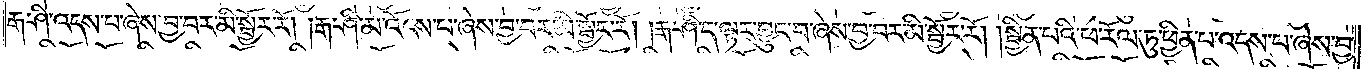རྒ་ཤི་འདས་པ་ཞེས་བྱ་བར་མི་སྦྱོར་རོ། །རྒ་ཤི་མ་འོངས་པ་ཞེས་བྱ་བར་མི་སྦྱོར་རོ། །རྒ་ཤི་ད་ལྟར་བྱུང་བ་ཞེས་བྱ་བར་མི་སྦྱོར་རོ། །སྦྱིན་པའི་ཕ་རོལ་ཏུ་ཕྱིན་པ་འདས་པ་ཞེས་བྱ་
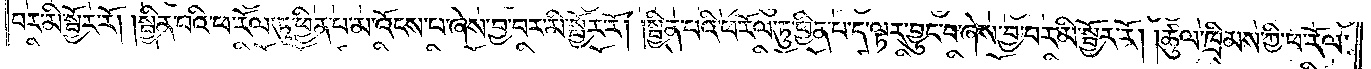བར་མི་སྦྱོར་རོ། །སྦྱིན་པའི་ཕ་རོལ་ཏུ་ཕྱིན་པ་མ་འོངས་པ་ཞེས་བྱ་བར་མི་སྦྱོར་རོ། །སྦྱིན་པའི་ཕ་རོལ་ཏུ་ཕྱིན་པ་ད་ལྟར་བྱུང་བ་ཞེས་བྱ་བར་མི་སྦྱོར་རོ། །ཚུལ་ཁྲིམས་ཀྱི་ཕ་རོལ་
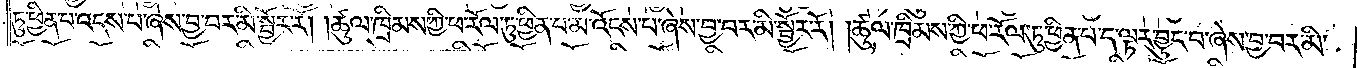ཏུ་ཕྱིན་པ་འདས་པ་ཞེས་བྱ་བར་མི་སྦྱོར་རོ། །ཚུལ་ཁྲིམས་ཀྱི་ཕ་རོལ་ཏུ་ཕྱིན་པ་མ་འོངས་པ་ཞེས་བྱ་བར་མི་སྦྱོར་རོ། །ཚུལ་ཁྲིམས་ཀྱི་ཕ་རོལ་ཏུ་ཕྱིན་པ་ད་ལྟར་བྱུང་བ་ཞེས་བྱ་བར་མི་
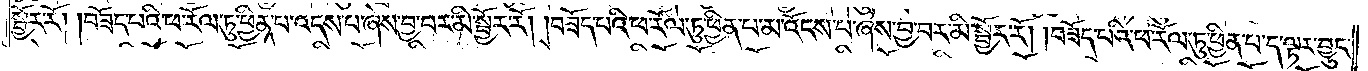སྦྱོར་རོ། །བཟོད་པའི་ཕ་རོལ་ཏུ་ཕྱིན་པ་འདས་པ་ཞེས་བྱ་བར་མི་སྦྱོར་རོ། །བཟོད་པའི་ཕ་རོལ་ཏུ་ཕྱིན་པ་མ་འོངས་པ་ཞེས་བྱ་བར་མི་སྦྱོར་རོ། །བཟོད་པའི་ཕ་རོལ་ཏུ་ཕྱིན་པ་ད་ལྟར་བྱུང་
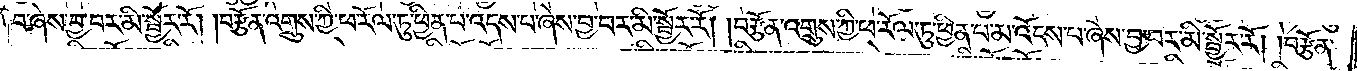བ་ཞེས་བྱ་བར་མི་སྦྱོར་རོ། །བརྩོན་འགྲུས་ཀྱི་ཕ་རོལ་ཏུ་ཕྱིན་པ་འདས་པ་ཞེས་བྱ་བར་མི་སྦྱོར་རོ། །བརྩོན་འགྲུས་ཀྱི་ཕ་རོལ་ཏུ་ཕྱིན་པ་མ་འོངས་པ་ཞེས་བྱ་བར་མི་སྦྱོར་རོ། །བརྩོན་
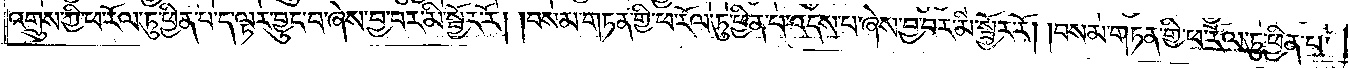འགྲུས་ཀྱི་ཕ་རོལ་ཏུ་ཕྱིན་པ་ད་ལྟར་བྱུང་བ་ཞེས་བྱ་བར་མི་སྦྱོར་རོ། །བསམ་གཏན་གྱི་ཕ་རོལ་ཏུ་ཕྱིན་པ་འདས་པ་ཞེས་བྱ་བར་མི་སྦྱོར་རོ། །བསམ་གཏན་གྱི་ཕ་རོལ་ཏུ་ཕྱིན་པ་
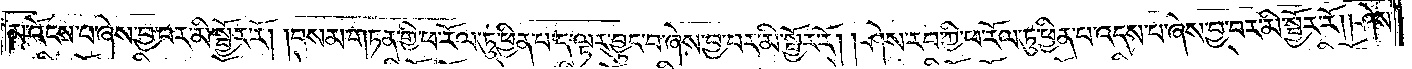མ་འོངས་པ་ཞེས་བྱ་བར་མི་སྦྱོར་རོ། །བསམ་གཏན་གྱི་ཕ་རོལ་ཏུ་ཕྱིན་པ་ད་ལྟར་བྱུང་བ་ཞེས་བྱ་བར་མི་སྦྱོར་རོ། །ཤེས་རབ་ཀྱི་ཕ་རོལ་ཏུ་ཕྱིན་པ་འདས་པ་ཞེས་བྱ་བར་མི་སྦྱོར་རོ། །ཤེས་
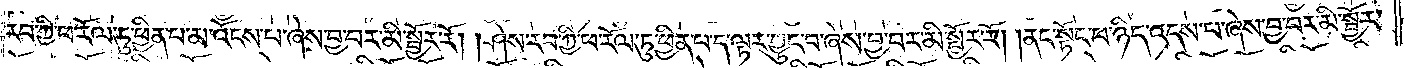རབ་ཀྱི་ཕ་རོལ་ཏུ་ཕྱིན་པ་མ་འོངས་པ་ཞེས་བྱ་བར་མི་སྦྱོར་རོ། །ཤེས་རབ་ཀྱི་ཕ་རོལ་ཏུ་ཕྱིན་པ་ད་ལྟར་བྱུང་བ་ཞེས་བྱ་བར་མི་སྦྱོར་རོ། །ནང་སྟོང་པ་ཉིད་འདས་པ་ཞེས་བྱ་བར་མི་སྦྱོར་
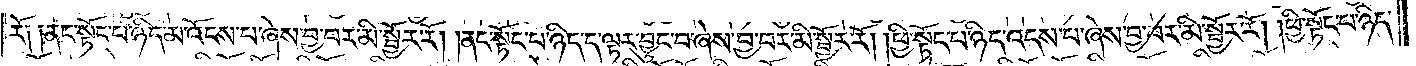རོ༑ ༑ནང་སྟོང་པ་ཉིད་མ་འོངས་པ་ཞེས་བྱ་བར་མི་སྦྱོར་རོ། །ནང་སྟོང་པ་ཉིད་ད་ལྟར་བྱུང་བ་ཞེས་བྱ་བར་མི་སྦྱོར་རོ། །ཕྱི་སྟོང་པ་ཉིད་འདས་པ་ཞེས་བྱ་བར་མི་སྦྱོར་རོ། །ཕྱི་སྟོང་པ་ཉིད་
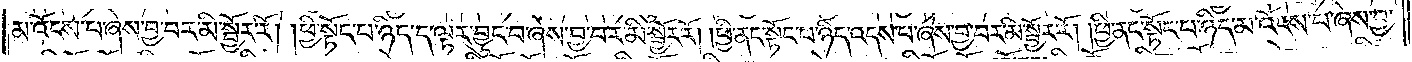མ་འོངས་པ་ཞེས་བྱ་བར་མི་སྦྱོར་རོ། །ཕྱི་སྟོང་པ་ཉིད་ད་ལྟར་བྱུང་བ་ཞེས་བྱ་བར་མི་སྦྱོར་རོ། །ཕྱི་ནང་སྟོང་པ་ཉིད་འདས་པ་ཞེས་བྱ་བར་མི་སྦྱོར་རོ། །ཕྱི་ནང་སྟོང་པ་ཉིད་མ་འོངས་པ་ཞེས་བྱ་
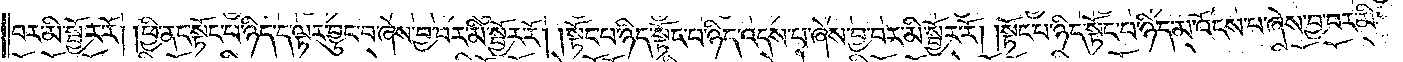བར་མི་སྦྱོར་རོ། །ཕྱི་ནང་སྟོང་པ་ཉིད་ད་ལྟར་བྱུང་བ་ཞེས་བྱ་བར་མི་སྦྱོར་རོ། །སྟོང་པ་ཉིད་སྟོང་པ་ཉིད་འདས་པ་ཞེས་བྱ་བར་མི་སྦྱོར་རོ། །སྟོང་པ་ཉིད་སྟོང་པ་ཉིད་མ་འོངས་པ་ཞེས་བྱ་བར་མི་
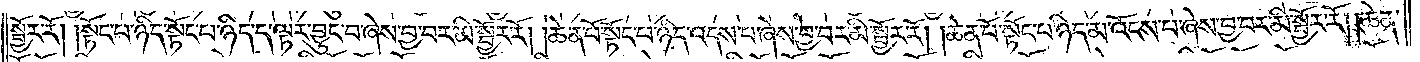སྦྱོར་རོ། །སྟོང་པ་ཉིད་སྟོང་པ་ཉིད་ད་ལྟར་བྱུང་བ་ཞེས་བྱ་བར་མི་སྦྱོར་རོ། །ཆེན་པོ་སྟོང་པ་ཉིད་འདས་པ་ཞེས་བྱ་བར་མི་སྦྱོར་རོ། །ཆེན་པོ་སྟོང་པ་ཉིད་མ་འོངས་པ་ཞེས་བྱ་བར་མི་སྦྱོར་རོ། །ཆེན་
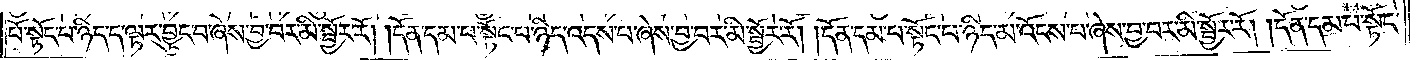པོ་སྟོང་པ་ཉིད་ད་ལྟར་བྱུང་བ་ཞེས་བྱ་བར་མི་སྦྱོར་རོ། །དོན་དམ་པ་སྟོང་པ་ཉིད་འདས་པ་ཞེས་བྱ་བར་མི་སྦྱོར་རོ། །དོན་དམ་པ་སྟོང་པ་ཉིད་མ་འོངས་པ་ཞེས་བྱ་བར་མི་སྦྱོར་རོ། །དོན་དམ་པ་སྟོང་
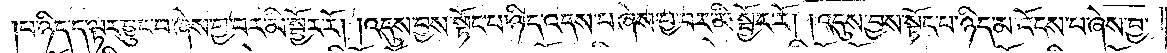པ་ཉིད་ད་ལྟར་བྱུང་བ་ཞེས་བྱ་བར་མི་སྦྱོར་རོ། །འདུས་བྱས་སྟོང་པ་ཉིད་འདས་པ་ཞེས་བྱ་བར་མི་སྦྱོར་རོ། །འདུས་བྱས་སྟོང་པ་ཉིད་མ་འོངས་པ་ཞེས་བྱ་
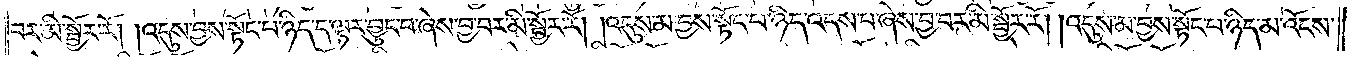བར་མི་སྦྱོར་རོ། །འདུས་བྱས་སྟོང་པ་ཉིད་ད་ལྟར་བྱུང་བ་ཞེས་བྱ་བར་མི་སྦྱོར་རོ། །འདུས་མ་བྱས་སྟོང་པ་ཉིད་འདས་པ་ཞེས་བྱ་བར་མི་སྦྱོར་རོ། །འདུས་མ་བྱས་སྟོང་པ་ཉིད་མ་འོངས་
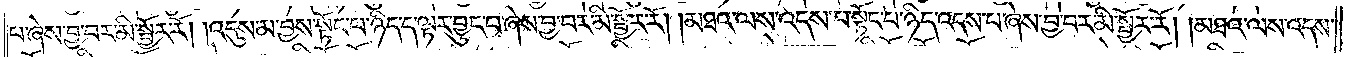པ་ཞེས་བྱ་བར་མི་སྦྱོར་རོ། །འདུས་མ་བྱས་སྟོང་པ་ཉིད་ད་ལྟར་བྱུང་བ་ཞེས་བྱ་བར་མི་སྦྱོར་རོ། །མཐའ་ལས་འདས་པ་སྟོང་པ་ཉིད་འདས་པ་ཞེས་བྱ་བར་མི་སྦྱོར་རོ། །མཐའ་ལས་འདས་
